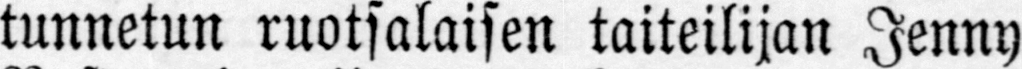tunnetun ruotsalaisen taiteilijan Jenny
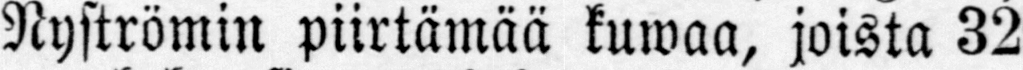Nyströmin piirtämää kuwaa, joista 32
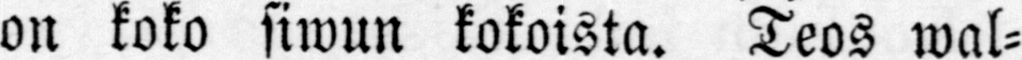on koko siwun kokoista. Teos wal-
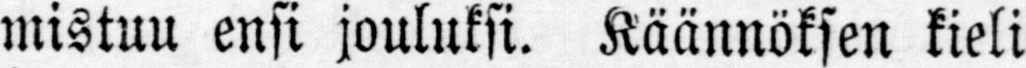mistuu ensi jouluksi. Käännöksen kieli
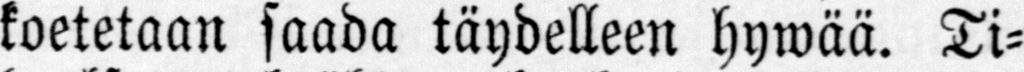koetetaan saada täydelleen hywää. Ti-
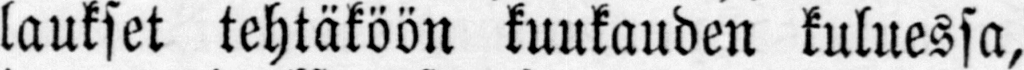laukset tehtäköön kuukauden kuluessa,
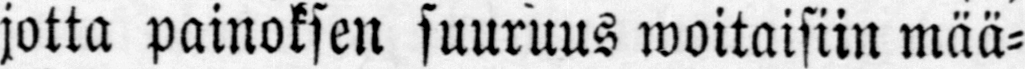jotta painoksen suuruus woitaisiin mää-
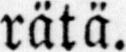rätä.
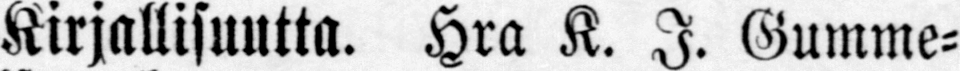Kirjallisuutta. Hra K. I. Gumme-
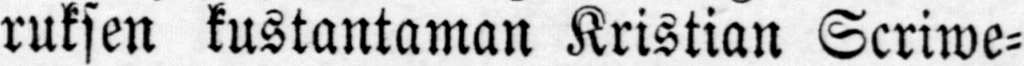ruksen kustantaman Kristian Scriwe-
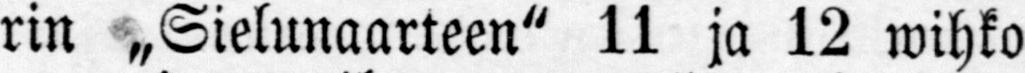rin „Sielunaarteen" 11 ja 12 wihko
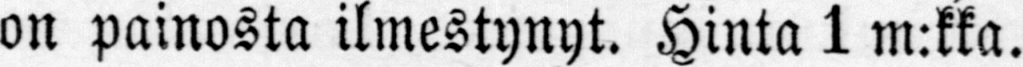on painosta ilmestynyt. Hinta 1 m:kka.
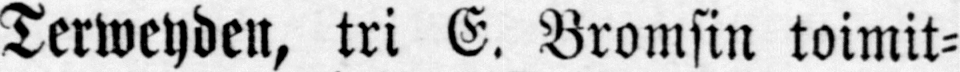Terlveyden, tri E. Bromsin toimit-
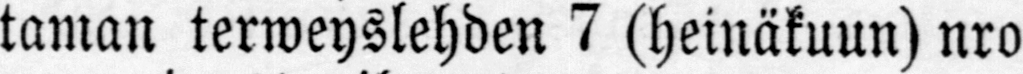taman terweyslehden 7 (heinäkuun) nro
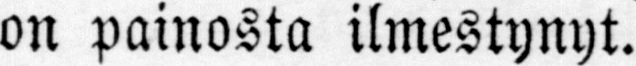on painosta ilmestynyt.
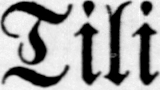Tili
